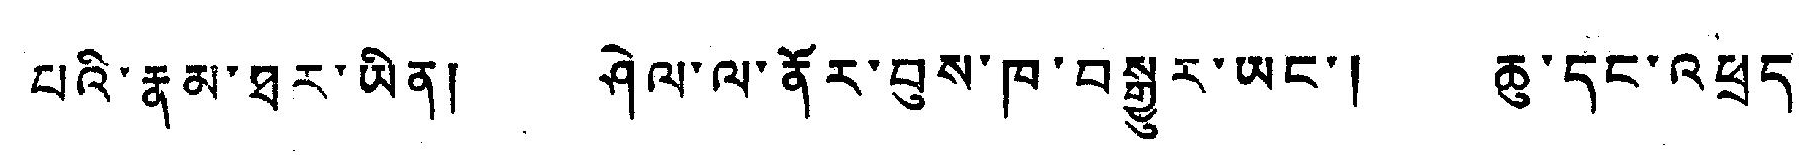པའི་རྣམ་ཐར་ཡིན། ཤེལ་ལ་ནོར་བུས་ཁ་བསྒྱུར་ཡང་། ཆུ་དང་འཕྲད་
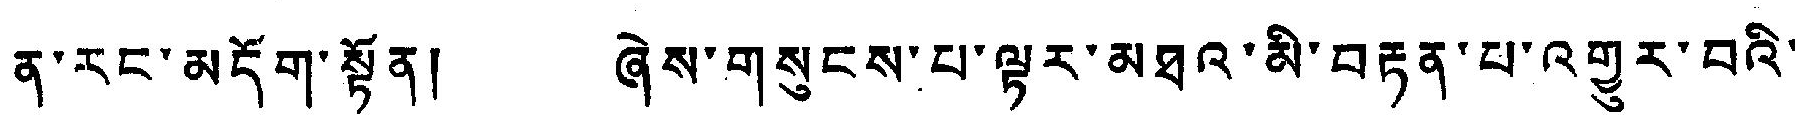ན་རང་མདོག་སྟོན། ཞེས་གསུངས་པ་ལྟར་མཐའ་མི་བརྟན་པ་འགྱུར་བའི་
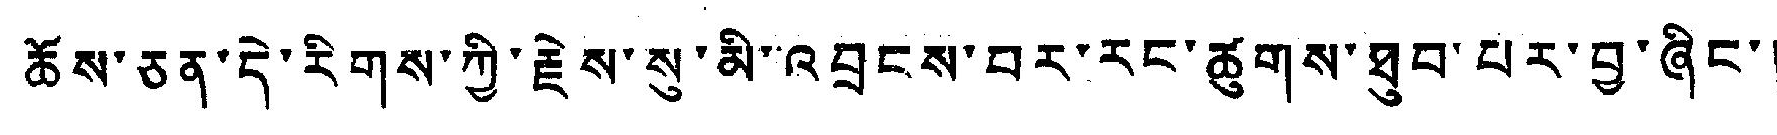ཆོས་ཅན་དེ་རིགས་ཀྱི་རྗེས་སུ་མི་འབྲངས་བར་རང་ཚུགས་ཐུབ་པར་བྱ་ཞིང་།
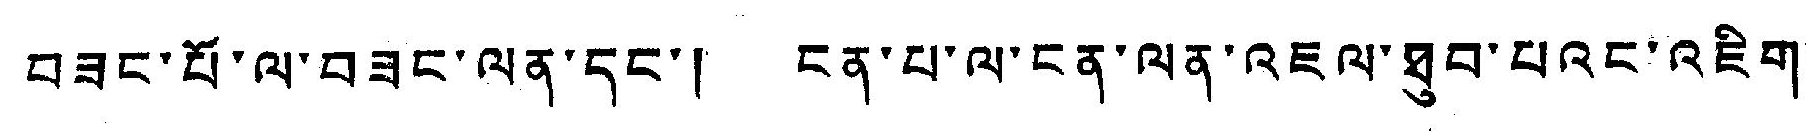བཟང་པོ་ལ་བཟང་ལན་དང་། ངན་པ་ལ་ངན་ལན་འཇལ་ཐུབ་པའང་འཇིག་
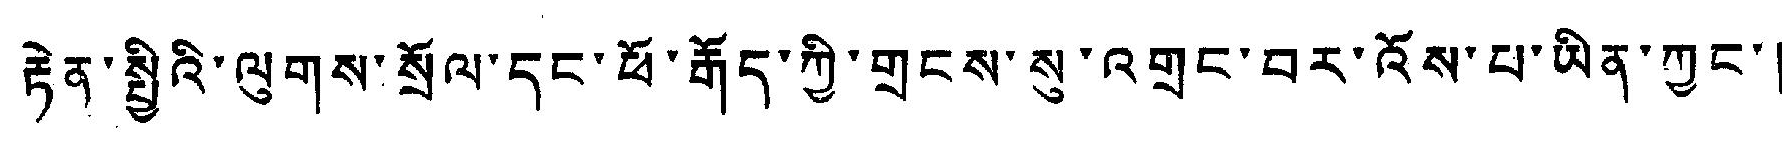རྟེན་སྤྲིའི་ལུགས་སྲོལ་དང་ཕོ་རྒོད་ཀྱི་གྲངས་སུ་འགྲང་བར་འོས་པ་ཡིན་ཀྱང་།
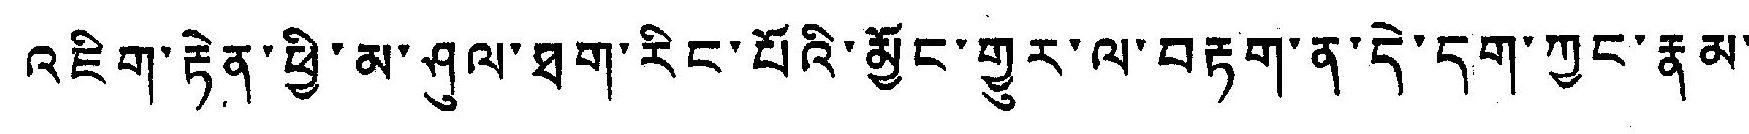འཇིག་རྟེན་ཕྱི་མ་ཤུལ་ཐག་རིང་པོའི་མྱོང་གྱུར་ལ་བརྟག་ན་དེ་དག་ཀྱང་རྣམ་་་
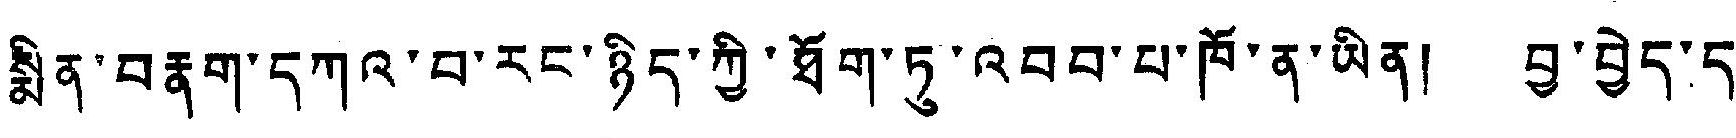སྨིན་བརྣག་དཀའ་བ་རང་ཉིད་ཀྱི་ཐོག་ཏུ་འབབ་པ་ཁོ་ན་ཡིན། བྱ་བྱེད་དུ་
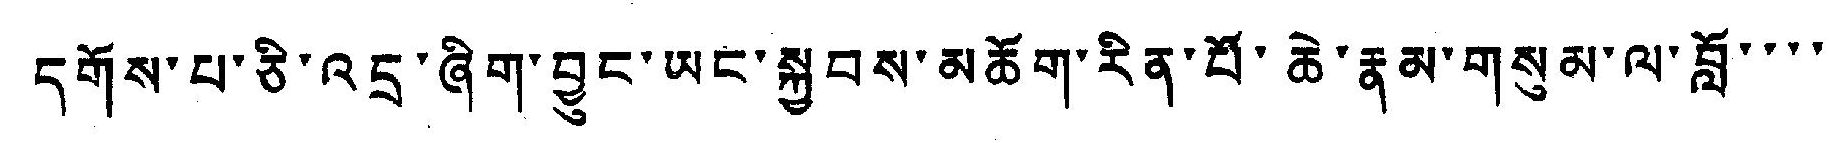དགོས་པ་ཅི་འདྲ་ཞིག་བྱུང་ཡང་སྐྱབས་མཆོག་རིན་པོ་ཆེ་རྣམ་གསུམ་ལ་བློ་་་་
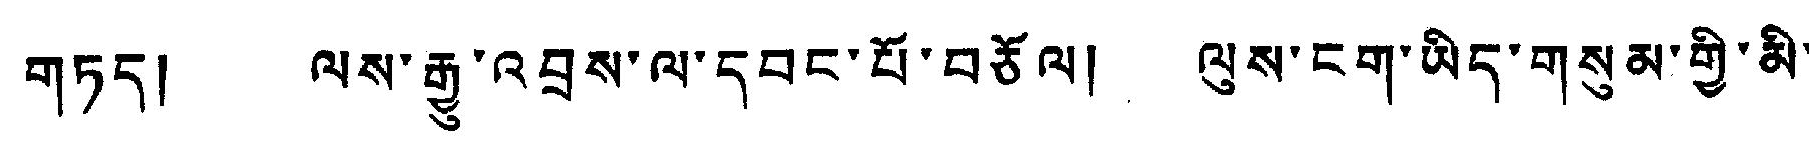གཏད། ལས་རྒྱུ་འབྲས་ལ་དབང་པོ་བཅོལ། ལུས་ངག་ཡིད་གསུམ་གྱི་མི་
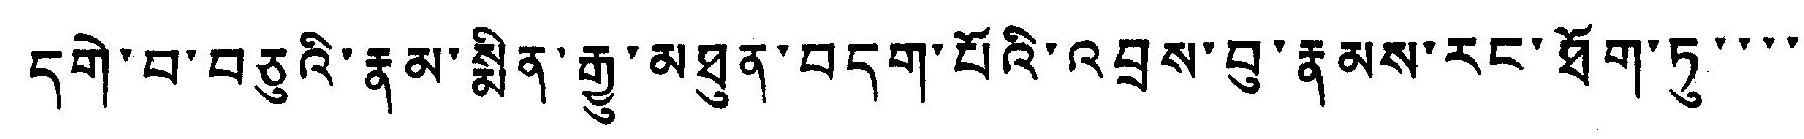དགེ་བ་བཅུའི་རྣམ་སྨིན་རྒྱུ་མཐུན་བདག་པོའི་འབྲས་བུ་རྣམས་རང་ཐོག་ཏུ་་་་
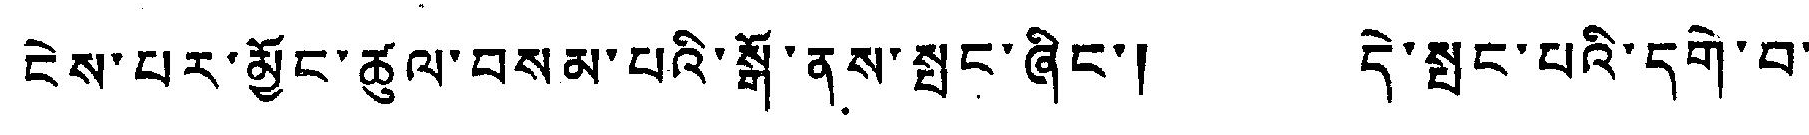ངེས་པར་མྱོང་ཚུལ་བསམ་པའི་སྒོ་ནས་སྤང་ཞིང་། དེ་སྤང་པའི་དགེ་བ་
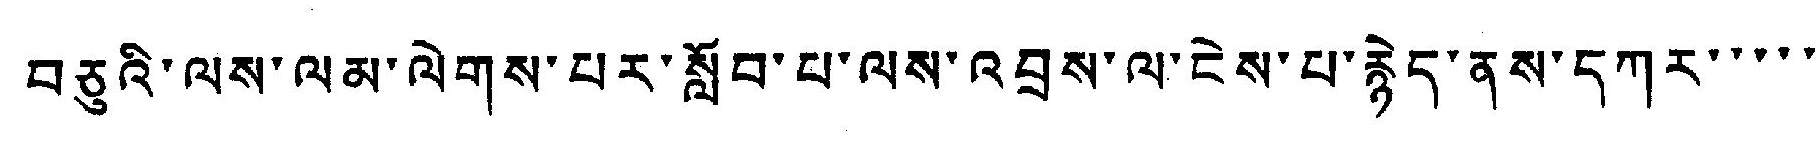བཅུའི་ལས་ལམ་ལེགས་པར་སློབ་པ་ལས་འབྲས་ལ་ངེས་པ་རྙེད་ནས་དཀར་་་་་
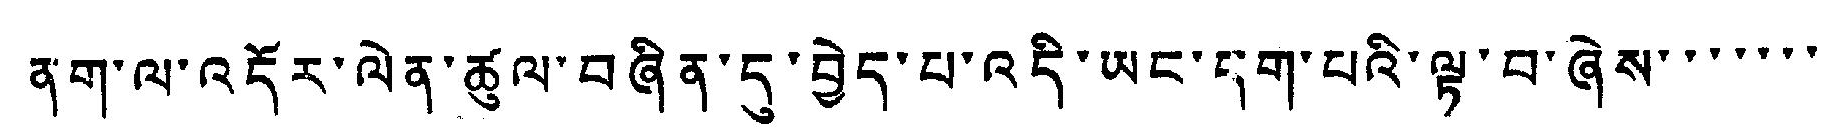ནག་ལ་འདོར་ལེན་ཚུལ་བཞིན་དུ་བྱེད་པ་འདི་ཡང་དག་པའི་ལྷ་བ་ཞེས་་་་་་་
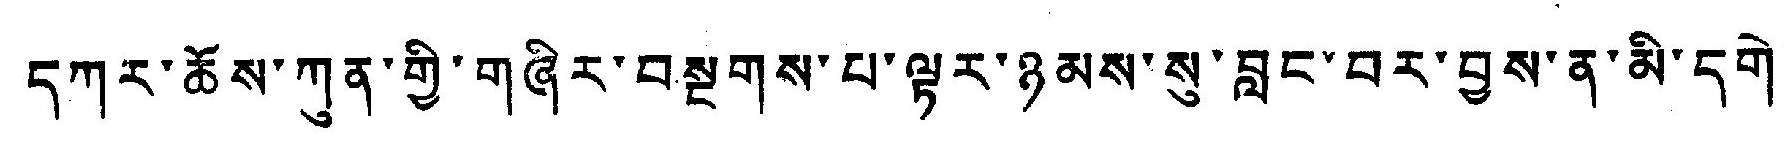དཀར་ཆོས་ཀུན་གྱི་གཞིར་བསྔགས་པ་ལྟར་ཉམས་སུ་བླང་བར་བྱས་ན་མི་དགེ་
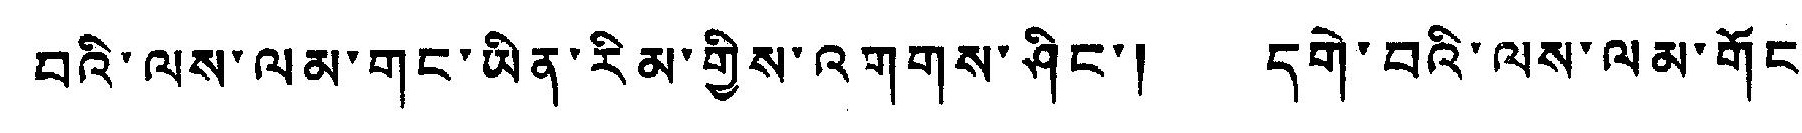བའི་ལས་ལམ་གང་ཡིན་རིམ་གྱིས་འགགས་ཤིང་། དགེ་བའི་ལས་ལམ་གོང་
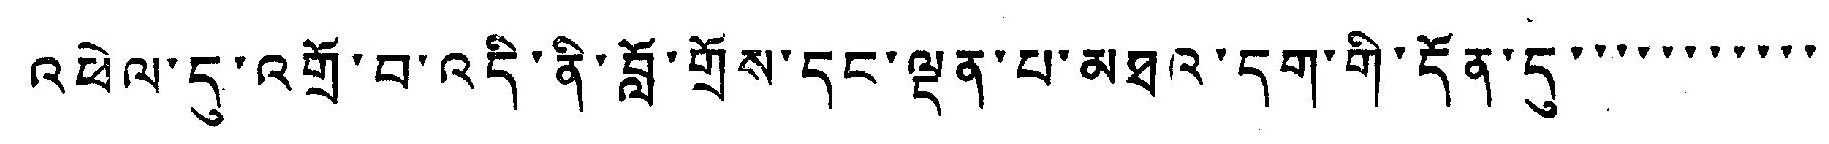འཕེལ་དུ་འགྲོ་བ་འདི་ནི་བློ་གྲོས་དང་ལྡན་པ་མཐའ་དག་གི་དོན་དུ་་་་་་་་་་་
